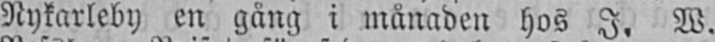Nykarleby en gång i månaden hos I. W.
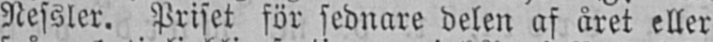Nessler. Priset för sednare delen af året eller
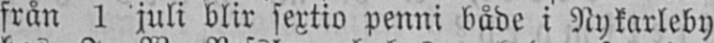från 1 juli blir sextio penni både i Nykarleby
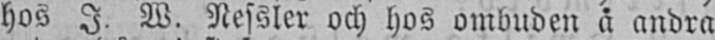hos I. W. Nessler och hos ombuden å andra
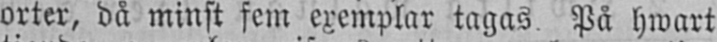orter, då minst fem exemplar tagas. På hwart
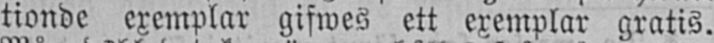tionde exemplar gifwes ett exemplar gratis.
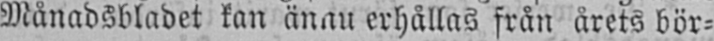Månadsbladet kan ännu erhållas från årets bör-
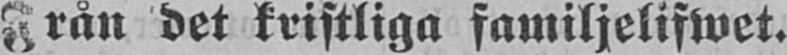Från det kristliga familjelifwet.
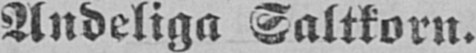Andeliga Saltkorn.
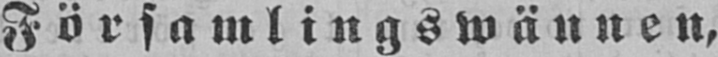Församlingswännen,
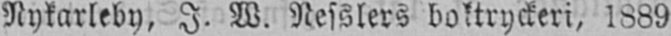Nykarleby, I. W. Nesslers boktryckeri, 1889
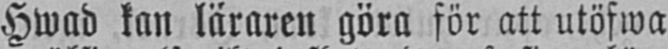Hwad kan läraren göra för att utöfwa
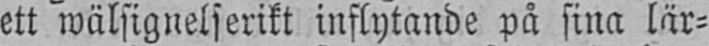ett wälsignelserikt inflytande på sina lär-
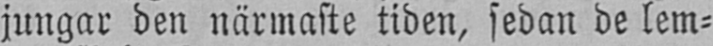jungar den närmaste tiden, sedan de lem-
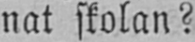nat skolan?
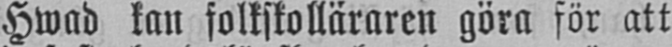Hwad kan folkskolläraren göra för att
